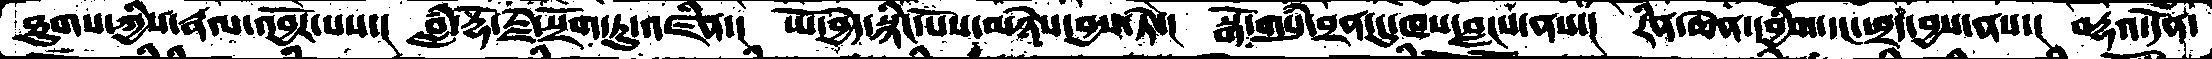ཐུགས་ཀྱིས་རྣལ་འབྱོར་པས་།  བླཾ་རྡོ་རྗེ་སྲོག་ཏུ་འཛིན་།  ཡོ་བྱད་སྙིང་པོས་མཉེས་བྱས་ཏེ་།  སྒོ་གསུམ་བྲན་དུ་ཁས་བླངས་ནས་།  རིན་ཆེན་དབྱིག་དང་ཕྲད་བྱས་ནས་།   བརྡའ་དོན་
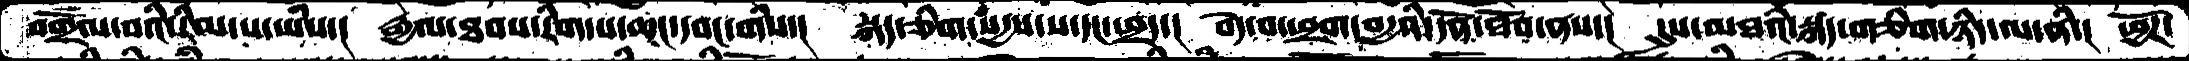བགྲོལ་བའི་རིམ་པ་ཡིས་།   རྒྱལ་ཐབས་རིག་པ་ཆང་དབང་གིས་།  སྐད་ཅིག་སདྱས་ས་དང་ཕྲད་།  བདེ་བ་ཕྲག་བདྱའི་དོན་ཐོབ་ནས་།  དུས་མཐའི་སྐད་གཅིག་ཉིད་ལ་ནི་།  ཕྱོཌ་
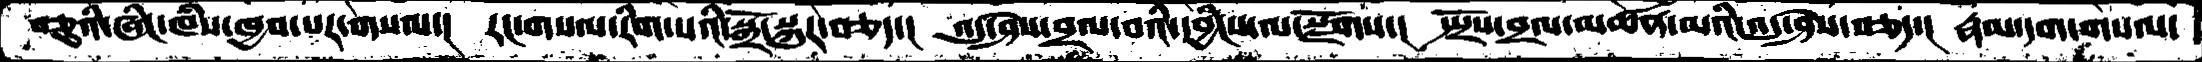བཅུའི་ཞིང་ཁཾས་ཁྱབ་པར་གསལ་།  རང་གསལ་རིག་པའི་སྒྲོ་སྐུར་བཅད་།  འདུ་ཤེས་བྲལ་བའི་དབྱིངས་ལ་སྫོགས་།  སྤྲོས་བྲལ་མཚན་མའི་འདུ་ཤེས་བཅད་།  རྣམ་དག་གསལ་
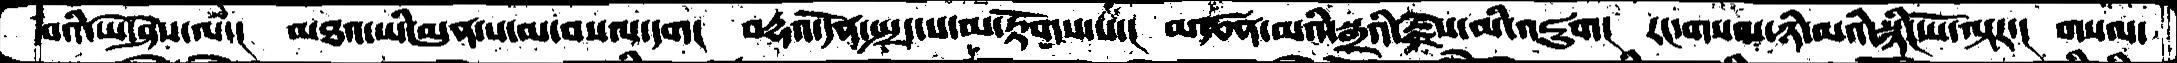བའི་ཡེ་ཤེས་ལ་།  མཐའ་ཡི་མུན་པ་མ་བསལ་དག།  བརྡའ་དོན་སྤྲད་པ་མ་རྟོགས་པ་།  མཚན་མའི་སྒྲའི་རྗེས་མི་འཇུག།  རང་གསལ་ཉི་མའི་སྙིང་པོ་ལྟར་།  གསལ་
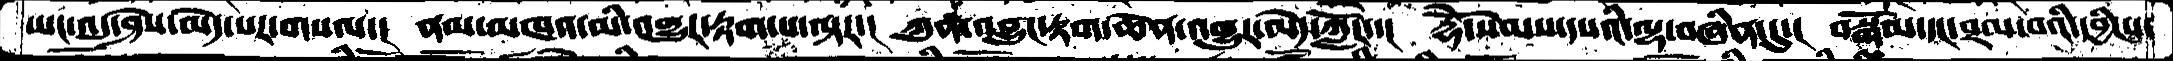ཡང་འདུ་ཤེས་མེད་པར་གསལ་།  ནམ་མཁའ་མི་འགྱུར་རྟག་པ་ཤར་།  ཀུན་འབྱུང་རྟག་ཆེན་འགྱུར་མེད་ཀློང་་།  རྡོེ་སེམས་དཔའི་ལྷ་བཞིན་དུ་།  བསྒོམ་དང་བྲལ་བའི་དབྱིངས་
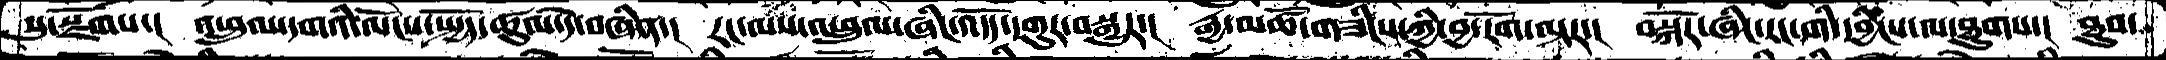སུ་སྫོགས་།  འཕྲུལ་དགའི་ལོངས་སྤྱོད་ཚུལ་དེ་བཞིན་།  རང་ལས་འཕྲུལ་ཞིང་འདོད་དགུར་བསྒྱུར་།  རྒྱ་མཚོ་གཟིངས་ཀྱི་བྱ་རོག་ལྟར་།  བསྐོར་ཞིང་རང་གི་དབྱིངས་ལ་ཐུགས་།  ཐུབ་
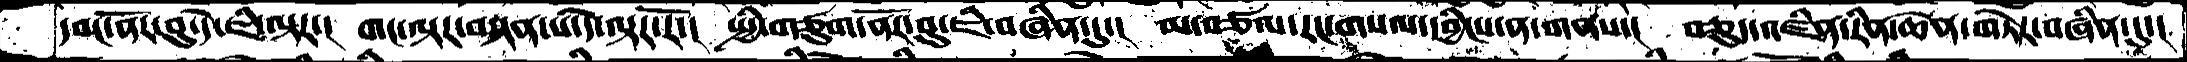དབང་ནོར་བུ་དེ་ཇི་ལྟར་།  གང་ལྟར་བསྟན་པ་དེ་ལྟར་རོ་།  སྤྱི་གཙུག་ནོར་བུ་ཇི་བཞིན་དུ་།  མ་བཙལ་རང་གསལ་དབྱིངས་ན་གནས་།  བཅུད་འཛིན་རིན་ཆེན་གཏེར་བཞིན་དུ་།
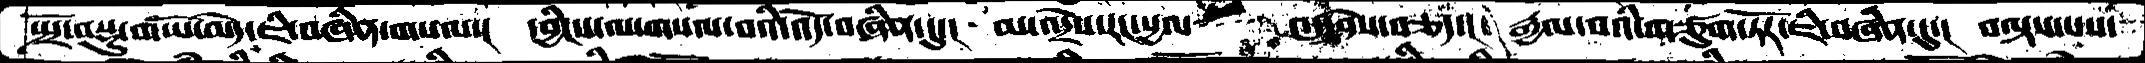སྤྲོ་བསྡུ་གཡོ་མེད་ཇི་བཞིན་གསལ་།  དབྱིངས་ལ་གསལ་བའི་འོད་བཞིན་དུ་།  མ་འདྲེས་རང་སྱལ་འདུ་ཤེས་བཅད་།  རྒྱལ་བའི་གཙུག་ཏོར་ཇི་བཞིན་དུ་།  བལྟས་པས་
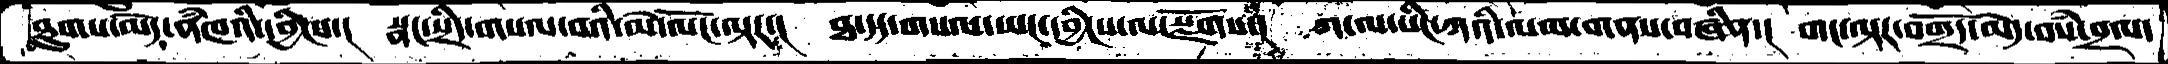ཐུགས་མེད་ནཾཁའི་དབྱིངས་།  སྣང་སྲིད་གསལ་བའི་མེ་ལོང་ལྟར་།  ཐ་དད་གསལ་ཡང་དབྱིངས་ལ་སྫོགས་།  ཀ་ལ་པིང་ལའི་ལམ་གནས་བཞིན་།  གང་ལྟར་བགྲོད་མེད་བསཾ་བྲལ་
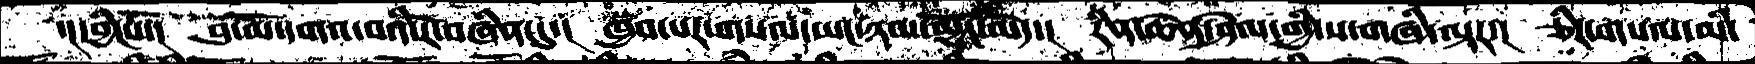་།དབྱིངས་།  བུ་མོ་དགའ་བའི་རོ་བཞིན་དུ་།  ཁྱབ་པར་གསལ་ཡང་ཉམས་མྱོང་མེད་།  རིན་ཆེན་ཤེལ་གྱི་ས་གཞི་ལྟར་།  ཅིར་གསལ་མི་
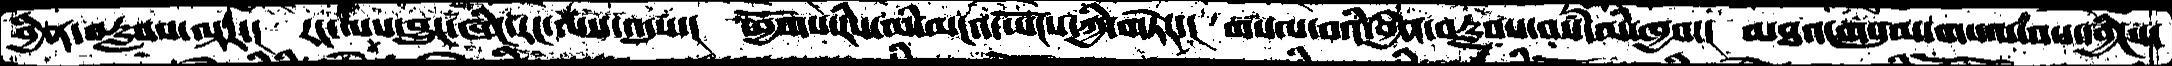བྱིན་བརླབས་ལྟར་།  རང་ལས་བྱུང་ཞིང་རང་ལས་འདུས་།  ཕྱོགས་རིས་མི་མངའ་ཡོངས་ཀྱི་གཏེར་།  གསལ་བའི་བྱིན་བརླབས་བསཾ་མི་ཁྱབ་།  མཐའ་གསུམ་གསལ་བས་དབྱིངས་
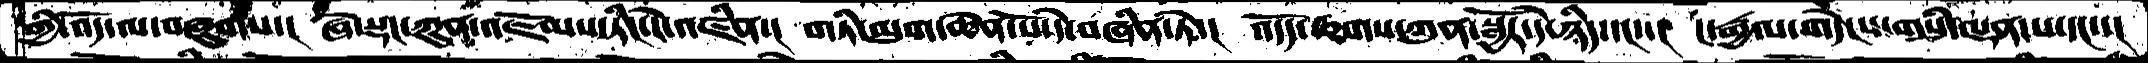གྱི་འོད་ལ་བཞུགས་།  ཞེ་སྡང་ཀུན་འཇོམས་ཏིང་ངེ་འཛིན་།  གཏི་མུག་ཆེན་པོ་དེ་བཞིན་ཏེ་།  འདོད་ཆགས་ཀུན་སྦྱོར་དེ་ཉིད་དང་་།  ང་རྒྱལ་གདེངས་གསུཾ་ལྡན་པ་དང་་།
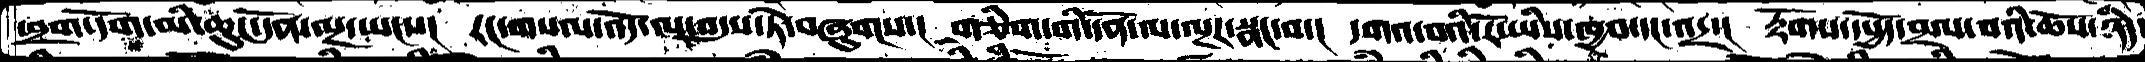ཕྲག་དོག་མི་ཆུང་དོན་ལྔ་ཡངས་།  རང་གསལ་འོད་ལ་བདུས་ཏེ་བཞུགས་།  གཅིག་གི་དོན་ལ་ལྔར་སྣང་བ་།  དགའ་བའི་རོ་ཡིས་ཁྱབ་དང་འདྲ་།  རྟོག་དཔྱོད་བྲལ་བའི་ཆོས་ཉིད་
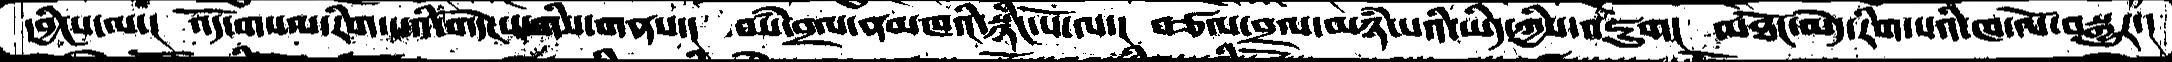དབྱིངས་ལ་།  འདོ་གསལ་རིག་པའི་གདེངས་གིས་གནས་།  བསཾ་བྲལ་ནམཁའི་སྙིང་པོ་ལ་།  བཙལ་བྲལ་མཉཾ་པའི་ཡིད་ཀྱིས་འཇུག།  མཐོང་མེད་རིག་པའི་ཁ་ལོ་བསྒྱུར་།
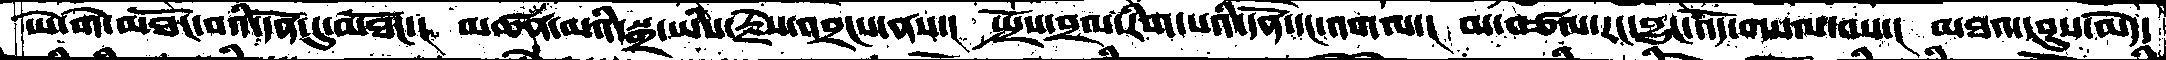ཡེ་གེ་མཐོང་བའི་དོན་དུ་མཐོང་་།  མཚན་མའི་སྒྲ་ཡིས་རྗེས་འབྲངས་ནས་།  སྤྲོས་བྲལ་རིག་པའི་དོན་དང་འགལ་།  མ་བཙལ་རང་བྱུང་འོད་གསལ་བས་།  མཐའ་དབུས་མེད་
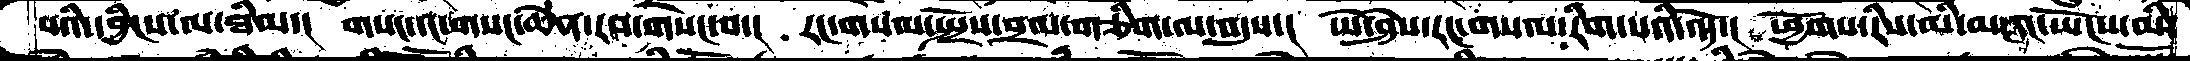པའི་དབྱིངས་ལ་ཐིམ་།  གསང་དང་གསང་ཆེན་རབ་གསང་བ་།  རང་གསལ་སྤྲོས་བྲལ་གཅིག་ལ་འདུས་།  ཡེ་ཤེས་རང་གསལ་རིག་པའི་འོད་།  ཕྱོགས་རིས་མི་མངའ་ཡོངས་མི་
